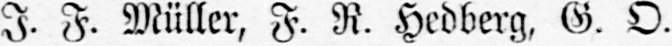I. F. Müller, F. R. Hedberg, G. O.
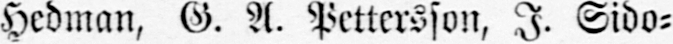Hedman, G. A. Pettersson, I. Sido-
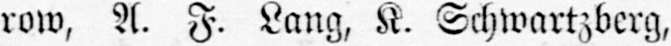row, A. F. Lang, K. Schwartzberg,
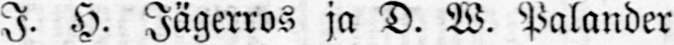I. H. Jägerros ja D. W. Palander
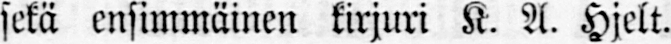sekä ensimmäinen kirjuri K. A. Hjelt.
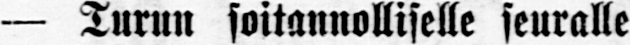— Turun soitannolliselle seuralle
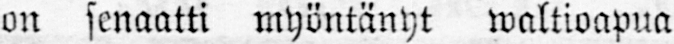on senaatti myöntänyt waltioapua
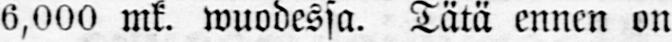6,000 mk. wuodessa. Tätä ennen on
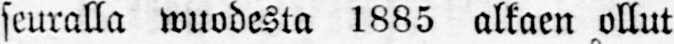seuralla wuodesta 1885 alkaen ollut
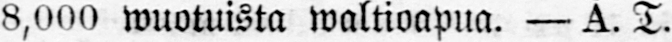8,000 wuotuista waltioapua. —Å. T.
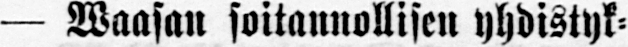— Waasan soitannollisen yhdistyk-
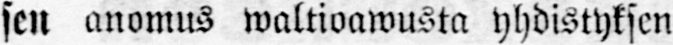sen anomus waltioawusta yhdistyksen
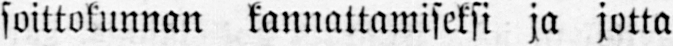soittokunnan kannattamiseksi ja jotta
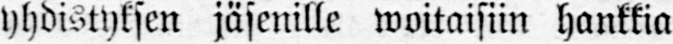yhdistyksen jäsenille woitaisiin hankkia
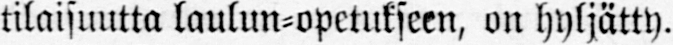tilaisuutta laulun-opetukseen, on hyljätty.
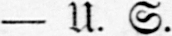— U. S.
